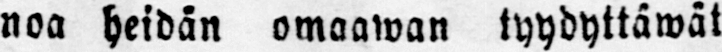noa heidän omaawan tyydyttäwät
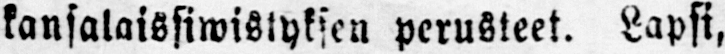kansalaissiwistyksen perusteet. Lapsi,
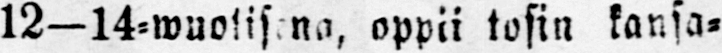12—14-wuotisena, oppii tosin kansa-
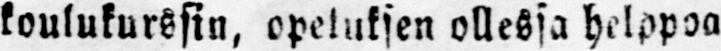koulukurssin, opetuksen ollessa helppoa
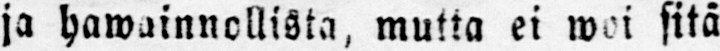ja hawainnollista, mutta ei woi sitä
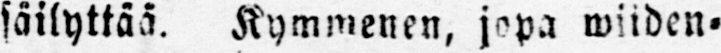säilyttää. Kymmenen, jopa wiiden-
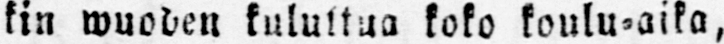kin wuoden kuluttua koko koulu-aika,
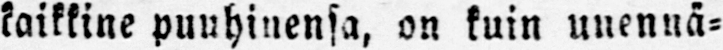kaikkine puuhinensa, on kuin unennä-
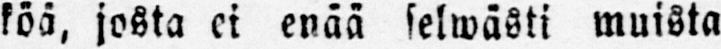köä, josta ei enää selwästi muista
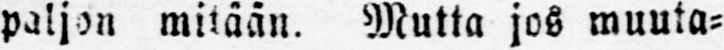paljon mitään. Mutta jos muuta-
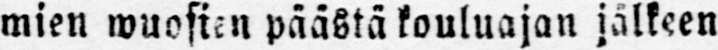mien wuosien päästä kouluajan jälkeen
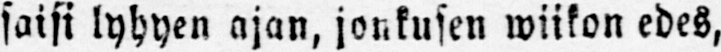saisi lyhyen ajan, jonkusen wiikon edes,
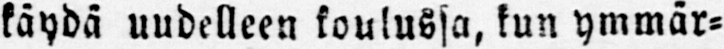käydä uudelleen koulussa, kun ymmär-
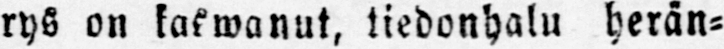rys on kaswanut, tiedonhalu herän-
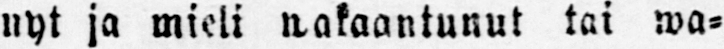nyt ja mieli wakaantunut tai wa-
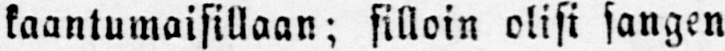kaantumaisillaan; silloin olisi sangen
